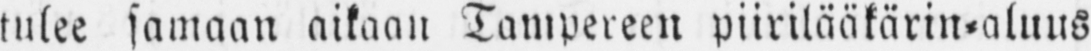tulee samaan aikaan Tampereen piirilääkärin-aluus
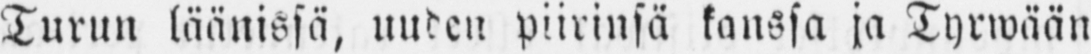Turun läänissä, uuden piirinsä kanssa ja Tyrwään
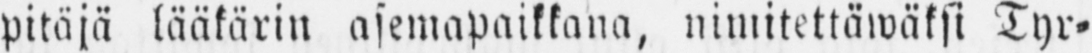pitäjä lääkärin asemapaikkana, nimitettäwäksi Tyr-
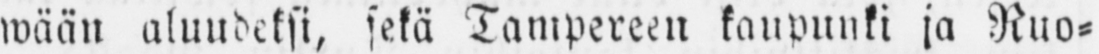wään alundeksi, sekä Tampereen kaupunki ja Ruo-
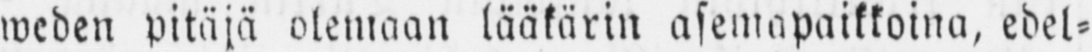weden pitäjä olemaan lääkärin asemapaikkoina, edel-
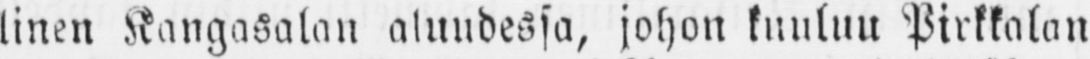linen Kangasalan aluudessa, johon kuuluu Pirkkalan
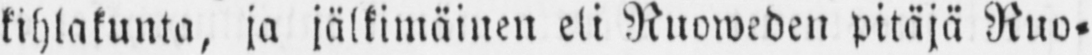kihlakunta, ja jälkimäinen eli Ruoweden pitäjä Ruo-
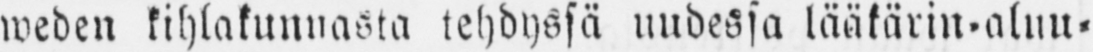weden kihlakunnasta tehdyssä uudessa lääkärin-aluu-
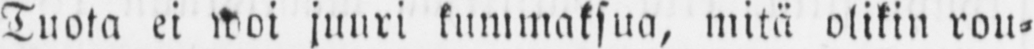Tuota ei woi juuri kummaksua, mitä olikin rou-
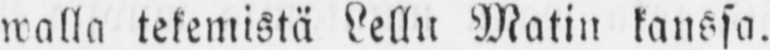walla tekemistä Lellu Matin kanssa.
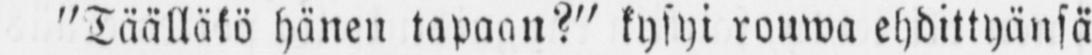”Täälläkö hänen tapaan?” kysyi rouwa ehdittyänsä
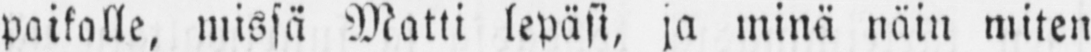paikalle, missä Matti lepäsi, ja minä näin miten
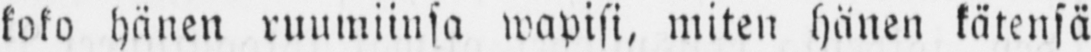koko hänen ruumiinsa wapisi, miten hänen kätensä
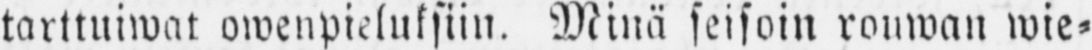tarttuiwat owenpieluksiin. Minä seisoin rouwan wie-
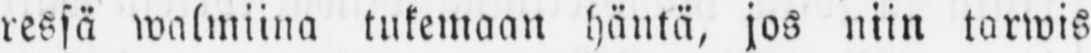ressä walmiina tukemaan häntä, jos niin tarwis
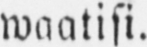waatisi.
